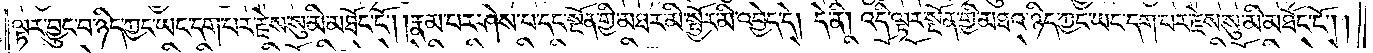ལྟར་བྱུང་བ་ཉིད་ཀྱང་ཡང་དག་པར་རྗེས་སུ་མི་མཐོང་ངོ༌། །རྣམ་པར་ཤེས་པ་དང་སྔོན་གྱི་མཐར་མི་སྦྱོར་མི་འབྱེད་དེ། དེ་ནི། འདི་ལྟར་སྔོན་གྱི་མཐའ་ཉིད་ཀྱང་ཡང་དག་པར་རྗེས་སུ་མི་མཐོང་ངོ༌། །
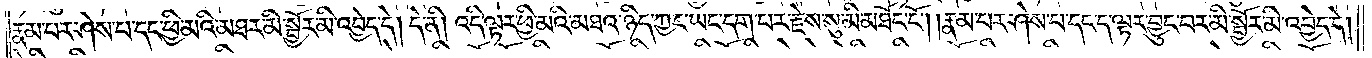རྣམ་པར་ཤེས་པ་དང་ཕྱི་མའི་མཐར་མི་སྦྱོར་མི་འབྱེད་དེ། དེ་ནི། འདི་ལྟར་ཕྱི་མའི་མཐའ་ཉིད་ཀྱང་ཡང་དག་པར་རྗེས་སུ་མི་མཐོང་ངོ༌། །རྣམ་པར་ཤེས་པ་དང་ད་ལྟར་བྱུང་བར་མི་སྦྱོར་མི་འབྱེད་དེ།
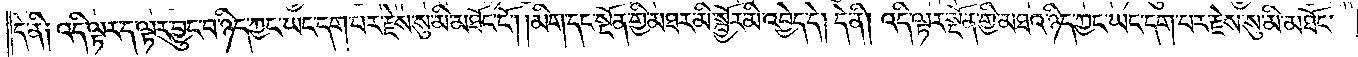དེ་ནི། འདི་ལྟར་ད་ལྟར་བྱུང་བ་ཉིད་ཀྱང་ཡང་དག་པར་རྗེས་སུ་མི་མཐོང་ངོ༌། །མིག་དང་སྔོན་གྱི་མཐར་མི་སྦྱོར་མི་འབྱེད་དེ། དེ་ནི། འདི་ལྟར་སྔོན་གྱི་མཐའ་ཉིད་ཀྱང་ཡང་དག་པར་རྗེས་སུ་མི་མཐོང་
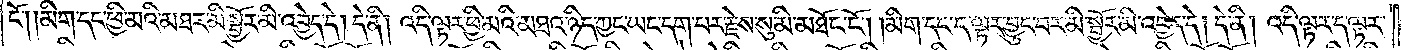ངོ༌། །མིག་དང་ཕྱི་མའི་མཐར་མི་སྦྱོར་མི་འབྱེད་དེ། དེ་ནི། འདི་ལྟར་ཕྱི་མའི་མཐའ་ཉིད་ཀྱང་ཡང་དག་པར་རྗེས་སུ་མི་མཐོང་ངོ༌། །མིག་དང་ད་ལྟར་བྱུང་བར་མི་སྦྱོར་མི་འབྱེད་དེ། དེ་ནི། འདི་ལྟར་ད་ལྟར་
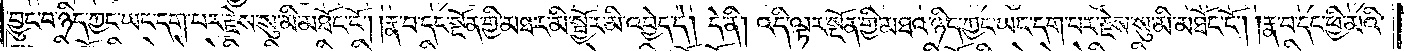བྱུང་བ་ཉིད་ཀྱང་ཡང་དག་པར་རྗེས་སུ་མི་མཐོང་ངོ༌། །རྣ་བ་དང་སྔོན་གྱི་མཐར་མི་སྦྱོར་མི་འབྱེད་དེ། དེ་ནི། འདི་ལྟར་སྔོན་གྱི་མཐའ་ཉིད་ཀྱང་ཡང་དག་པར་རྗེས་སུ་མི་མཐོང་ངོ༌། །རྣ་བ་དང་ཕྱི་མའི་
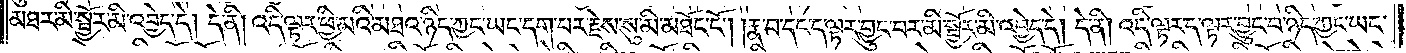མཐར་མི་སྦྱོར་མི་འབྱེད་དེ། དེ་ནི། འདི་ལྟར་ཕྱི་མའི་མཐའ་ཉིད་ཀྱང་ཡང་དག་པར་རྗེས་སུ་མི་མཐོང་ངོ༌། །རྣ་བ་དང་ད་ལྟར་བྱུང་བར་མི་སྦྱོར་མི་འབྱེད་དེ། དེ་ནི། འདི་ལྟར་ད་ལྟར་བྱུང་བ་ཉིད་ཀྱང་ཡང་
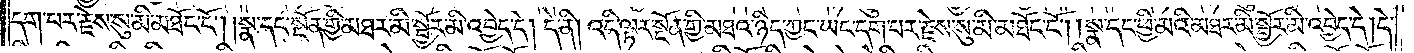དག་པར་རྗེས་སུ་མི་མཐོང་ངོ༌། །སྣ་དང་སྔོན་གྱི་མཐར་མི་སྦྱོར་མི་འབྱེད་དེ། དེ་ནི། འདི་ལྟར་སྔོན་གྱི་མཐའ་ཉིད་ཀྱང་ཡང་དག་པར་རྗེས་སུ་མི་མཐོང་ངོ༌། །སྣ་དང་ཕྱི་མའི་མཐར་མི་སྦྱོར་མི་འབྱེད་དེ། དེ་
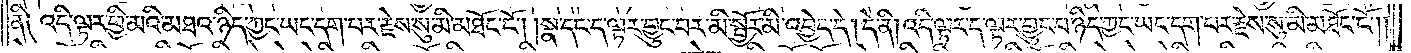ནི༑ འདི་ལྟར་ཕྱི་མའི་མཐའ་ཉིད་ཀྱང་ཡང་དག་པར་རྗེས་སུ་མི་མཐོང་ངོ༌། །སྣ་དང་ད་ལྟར་བྱུང་བར་མི་སྦྱོར་མི་འབྱེད་དེ། དེ་ནི། འདི་ལྟར་ད་ལྟར་བྱུང་བ་ཉིད་ཀྱང་ཡང་དག་པར་རྗེས་སུ་མི་མཐོང་ངོ༌༎
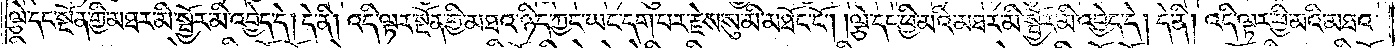ལྕེ་དང་སྔོན་གྱི་མཐར་མི་སྦྱོར་མི་འབྱེད་དེ། དེ་ནི། འདི་ལྟར་སྔོན་གྱི་མཐའ་ཉིད་ཀྱང་ཡང་དག་པར་རྗེས་སུ་མི་མཐོང་ངོ༌། །ལྕེ་དང་ཕྱི་མའི་མཐར་མི་སྦྱོར་མི་འབྱེད་དེ། དེ་ནི། འདི་ལྟར་ཕྱི་མའི་མཐའ་
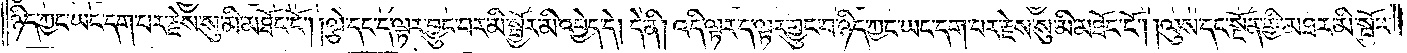ཉིད་ཀྱང་ཡང་དག་པར་རྗེས་སུ་མི་མཐོང་ངོ༌། །ལྕེ་དང་ད་ལྟར་བྱུང་བར་མི་སྦྱོར་མི་འབྱེད་དེ། དེ་ནི། འདི་ལྟར་ད་ལྟར་བྱུང་བ་ཉིད་ཀྱང་ཡང་དག་པར་རྗེས་སུ་མི་མཐོང་ངོ༌། །ལུས་དང་སྔོན་གྱི་མཐར་མི་སྦྱོར་
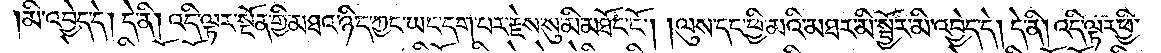མི་འབྱེད་དེ། དེ་ནི། འདི་ལྟར་སྔོན་གྱི་མཐའ་ཉིད་ཀྱང་ཡང་དག་པར་རྗེས་སུ་མི་མཐོང་ངོ༌། །ལུས་དང་ཕྱི་མའི་མཐར་མི་སྦྱོར་མི་འབྱེད་དེ། དེ་ནི། འདི་ལྟར་ཕྱི་
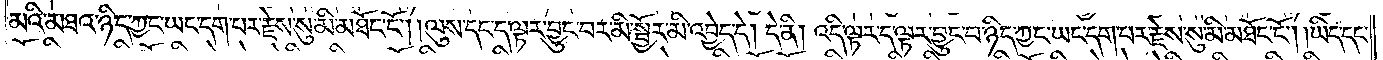མའི་མཐའ་ཉིད་ཀྱང་ཡང་དག་པར་རྗེས་སུ་མི་མཐོང་ངོ༌། །ལུས་དང་ད་ལྟར་བྱུང་བར་མི་སྦྱོར་མི་འབྱེད་དེ། དེ་ནི། འདི་ལྟར་ད་ལྟར་བྱུང་བ་ཉིད་ཀྱང་ཡང་དག་པར་རྗེས་སུ་མི་མཐོང་ངོ༌། །ཡིད་དང་
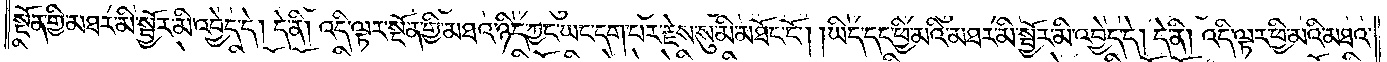སྔོན་གྱི་མཐར་མི་སྦྱོར་མི་འབྱེད་དེ། དེ་ནི། འདི་ལྟར་སྔོན་གྱི་མཐའ་ཉིད་ཀྱང་ཡང་དག་པར་རྗེས་སུ་མི་མཐོང་ངོ༌། །ཡིད་དང་ཕྱི་མའི་མཐར་མི་སྦྱོར་མི་འབྱེད་དེ། དེ་ནི། འདི་ལྟར་ཕྱི་མའི་མཐའ་
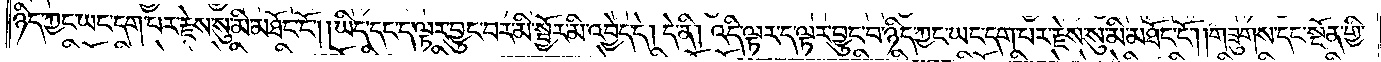ཉིད་ཀྱང་ཡང་དག་པར་རྗེས་སུ་མི་མཐོང་ངོ༌། །ཡིད་དང་ད་ལྟར་བྱུང་བར་མི་སྦྱོར་མི་འབྱེད་དེ། དེ་ནི། འདི་ལྟར་ད་ལྟར་བྱུང་བ་ཉིད་ཀྱང་ཡང་དག་པར་རྗེས་སུ་མི་མཐོང་ངོ༌། །གཟུགས་དང་སྔོན་གྱི་
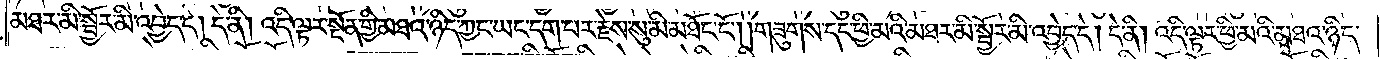མཐར་མི་སྦྱོར་མི་འབྱེད་དེ། དེ་ནི། འདི་ལྟར་སྔོན་གྱི་མཐའ་ཉིད་ཀྱང་ཡང་དག་པར་རྗེས་སུ་མི་མཐོང་ངོ༌། །གཟུགས་དང་ཕྱི་མའི་མཐར་མི་སྦྱོར་མི་འབྱེད་དེ། དེ་ནི། འདི་ལྟར་ཕྱི་མའི་མཐའ་ཉིད་
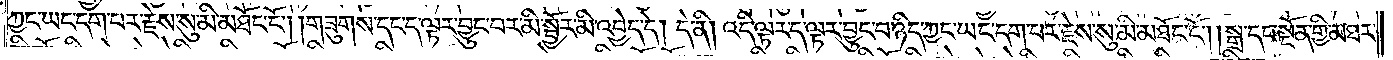ཀྱང་ཡང་དག་པར་རྗེས་སུ་མི་མཐོང་ངོ༌། །གཟུགས་དང་ད་ལྟར་བྱུང་བར་མི་སྦྱོར་མི་འབྱེད་དེ། དེ་ནི། འདི་ལྟར་ད་ལྟར་བྱུང་བ་ཉིད་ཀྱང་ཡང་དག་པར་རྗེས་སུ་མི་མཐོང་ངོ༌། །སྒྲ་དང་སྔོན་གྱི་མཐར་
